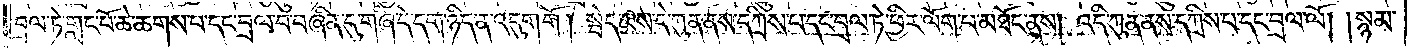བྲལ་ཏེ་གླང་པོ་ཆེ་ཆགས་པ་དང་བྲལ་བ་བཞིན་དུ་གཞི་དེ་དག་ཉིད་ན་འདུག་གོ ། སྦེད་མས་དེ་ཀུན་ནས་དཀྲིས་པ་དང་བྲལ་ཏེ་ཕྱིར་ལོག་པ་མཐོང་ནས། འདི་ཀུན་ནས་དཀྲིས་པ་དང་བྲལ་ལོ། །སྙམ་
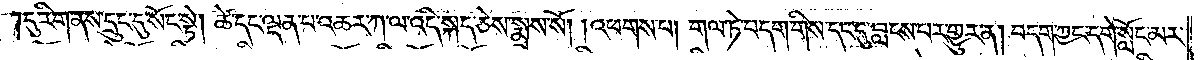དུ་རིག་ནས་དྲུང་དུ་སོང་སྟེ། ཚེ་དང་ལྡན་པ་འཆར་ཀ་ལ་འདི་སྐད་ཅེས་སྨྲས་སོ། །འཕགས་པ། གལ་ཏེ་བདག་གིས་དང་དུ་བླངས་པར་གྱུར་ན། བདག་ཀྱང་དགེ་སློང་མར་
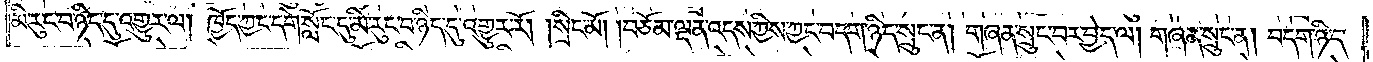མི་རུང་བ་ཉིད་དུ་འགྱུར་ལ། ཁྱོད་ཀྱང་དགེ་སློང་དུ་མི་རུང་བ་ཉིད་དུ་འགྱུར་རོ། །སྲིང་མོ། །བཅོམ་ལྡན་འདས་ཀྱིས་ཀྱང་བདག་ཉིད་སྲུང་ན། གཞན་སྲུང་བར་བྱེད་ལ། གཞན་སྲུང་ན། བདག་ཉིད་
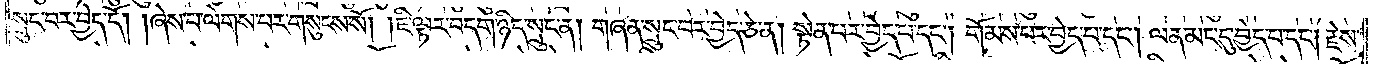སྲུང་བར་བྱེད་དོ། །ཞེས་པ་ལེགས་པར་གསུངས་སོ། །ཇི་ལྟར་བདག་ཉིད་སྲུང་ན། གཞན་སྲུང་བར་བྱེད་ཅེ་ན། སྟེན་པར་བྱེད་པ་དང༌། གོམས་པར་བྱེད་པ་དང༌། ལན་མང་དུ་བྱེད་པ་དང༌། རྗེས་
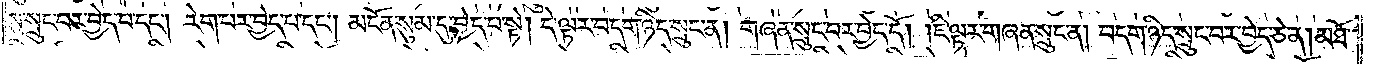སུ་སྲུང་བར་བྱེད་པ་དང༌། རེག་པར་བྱེད་པ་དང༌། མངོན་སུམ་དུ་བྱེད་པ་སྟེ། དེ་ལྟར་བདག་ཉིད་སྲུང་ན། གཞན་སྲུང་བར་བྱེད་དོ། །ཇི་ལྟར་གཞན་སྲུང་ན། བདག་ཉིད་སྲུང་བར་བྱེད་ཅེ་ན། མཐོ་
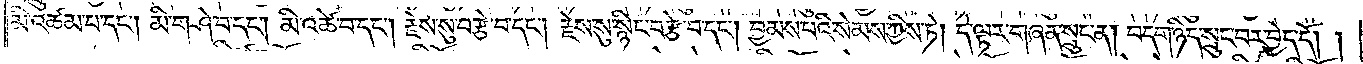མི་འཚམ་པ་དང༌། མི་གཤེ་བ་དང༌། མི་འཚེ་བ་དང༌། རྗེས་སུ་བརྩེ་བ་དང༌། རྗེས་སུ་སྙིང་བརྩེ་བ་དང༌། བྱམས་པའི་སེམས་ཀྱིས་ཏེ། དེ་ལྟར་གཞན་སྲུང་ན། བདག་ཉིད་སྲུང་བར་བྱེད་དོ། །
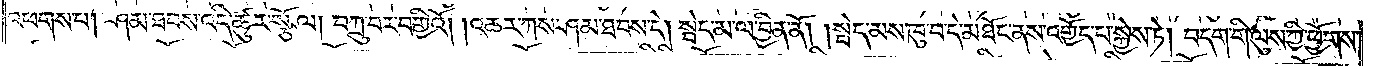འཕགས་པ། ཤམ་ཐབས་འདི་ཚུར་སྩོལ། བཀྲུ་བར་བགྱིའོ། །འཆར་ཀས་ཤམ་ཐབས་དེ། སྦེད་མ་ལ་བྱིན་ནོ། །སྦེད་མས་ཁུ་བ་དེ་མཐོང་ནས་འགྱོད་པ་སྐྱེས་ཏེ། བདག་གི་ལུས་ཀྱི་ཕྱོགས་
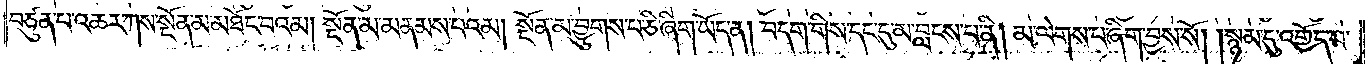བཙུན་པ་འཆར་ཀས་སྔོན་མ་མཐོང་བའམ། སྔོན་མ་མནམས་པའམ། སྔོན་མ་བྱུགས་པ་ཅི་ཞིག་ཡོད་ན། བདག་གིས་དང་དུ་མ་བླངས་པ་ནི། མ་ལེགས་པ་ཞིག་བྱས་སོ། །སྙམ་དུ་འགྱོད་པ་
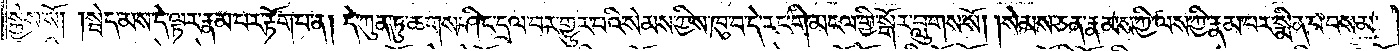སྐྱེས་སོ། །སྦེད་མས་དེ་ལྟར་རྣམ་པར་རྟོག་པ་ན། དེ་ཀུན་ཏུ་ཆགས་ཤིང་དྲལ་བར་གྱུར་པའི་སེམས་ཀྱིས་ཁུ་བ་དེ་རང་གི་མངལ་གྱི་སྒོར་བླུགས་སོ། །སེམས་ཅན་རྣམས་ཀྱི་ལས་ཀྱི་རྣམ་པར་སྨིན་པ་བསམ་
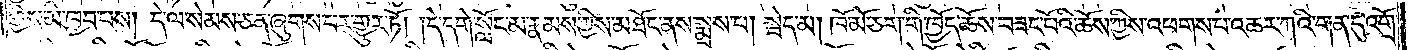གྱིས་མི་ཁྱབ་པས། དེ་ལ་སེམས་ཅན་ཞུགས་པར་གྱུར་ཏོ། །དེ་དགེ་སློང་མ་རྣམས་ཀྱིས་མཐོང་ནས་སྨྲས་པ། སྦེད་མ། ཁོ་མོ་ཅག་གི་ཁྱོད་ཆོས་བཟང་པོའི་ཆོས་ཀྱིས་འཕགས་པ་འཆར་ཀའི་གན་དུ་འགྲོ་
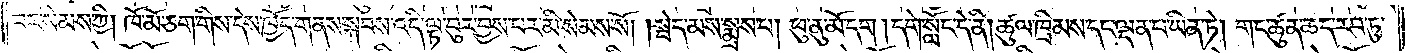བར་སེམས་ཀྱི། ཁོ་མོ་ཅག་གིས་དེས་ཁྱོད་གནས་སྐབས་འདི་ལྟ་བུར་བྱས་པར་མི་སེམས་སོ། །སྦེད་མས་སྨྲས་པ། ཕུ་ནུ་མོ་དག །དགེ་སློང་དེ་ནི། ཚུལ་ཁྲིམས་དང་ལྡན་པ་ཡིན་ཏེ། གང་ཚུན་ཆད་རབ་ཏུ་
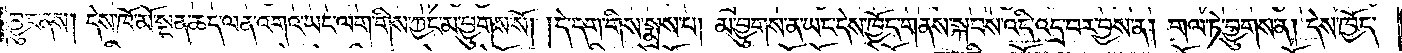བྱུང་ནས། དེས་ཁོ་མོ་སྔན་ཆད་ལན་འགའ་ཡང་ལག་གིས་ཀྱང་མ་བྱུགས་སོ། །དེ་དག་གིས་སྨྲས་པ། མ་བྱུགས་ན་ཡང་དེས་ཁྱོད་གནས་སྐབས་འདི་འདྲ་བར་བྱས་ན། གལ་ཏེ་བྱུགས་ན། དེས་ཁྱོད་
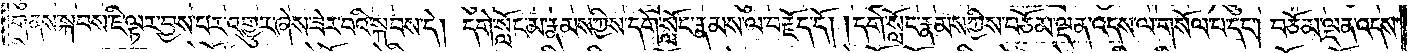གནས་སྐབས་ཇི་ལྟར་བྱས་པར་འགྱུར་ཞེས་ཟེར་བའི་སྐབས་དེ། དགེ་སློང་མ་རྣམས་ཀྱིས་དགེ་སློང་རྣམས་ལ་བརྗོད་དོ། །དགེ་སློང་རྣམས་ཀྱིས་བཅོམ་ལྡན་འདས་ལ་གསོལ་པ་དང༌། བཅོམ་ལྡན་འདས་
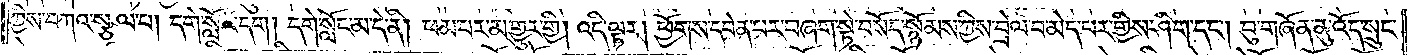ཀྱིས་བཀའ་སྩལ་པ། དགེ་སློང་དག །དགེ་སློང་མ་དེ་ནི། ཕམ་པར་མ་གྱུར་གྱི། འདི་ལྟར། ཕྱོགས་དབེན་པར་བཞག་སྟེ་བསོད་སྙོམས་ཀྱིས་བྲེལ་བ་མེད་པར་གྱིས་ཤིག་དང༌། བུ་གཞོན་ནུ་འོད་སྲུང་
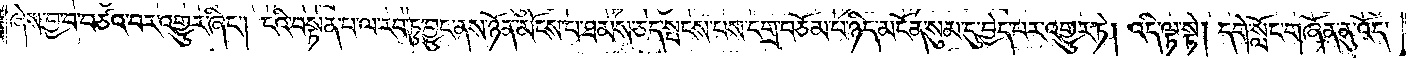ཞེས་བྱ་བ་བཙའ་བར་འགྱུར་ཞིང༌། ངའི་བསྟན་པ་ལ་རབ་ཏུ་བྱུང་ནས་ཉོན་མོངས་པ་ཐམས་ཅད་སྤངས་པས་དགྲ་བཅོམ་པ་ཉིད་མངོན་སུམ་དུ་བྱེད་པར་འགྱུར་ཏེ། འདི་ལྟ་སྟེ། དགེ་སློང་གཞོན་ནུ་འོད་
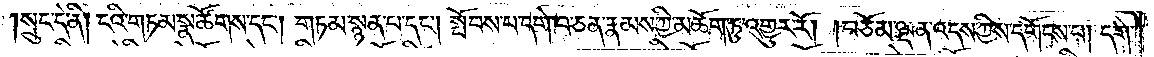སྲུང་དེ་ནི། ངའི་གཏམ་སྣ་ཚོགས་དང༌། གཏམ་སྙན་པ་དང༌། སྤོབས་པ་དགེ་བ་ཅན་རྣམས་ཀྱི་མཆོག་ཏུ་འགྱུར་རོ། །བཅོམ་ལྡན་འདས་ཀྱིས་དགོངས་པ། དགེ་
